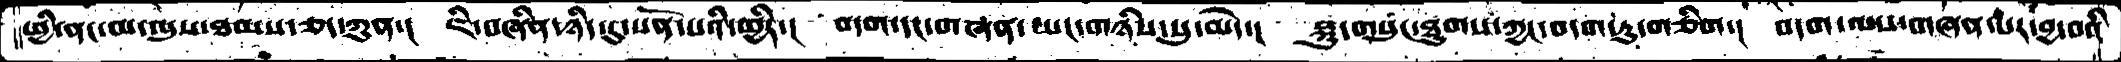ཕྱི་ནང་མ་ལུས་ཐམས་ཅད་ཀུན་།  ཇི་བཞིན་ཉིད་དུ་སོན་པའི་ཕྱིར་།  བདག་དང་གཞན་ཡང་གཉིས་སུ་མེད་།   སྐུ་གསུང་ཐུགས་ཀྱང་བདག་ཏུ་གཅིག་།  བདག་ལས་གཞན་པར་བྱ་བའི
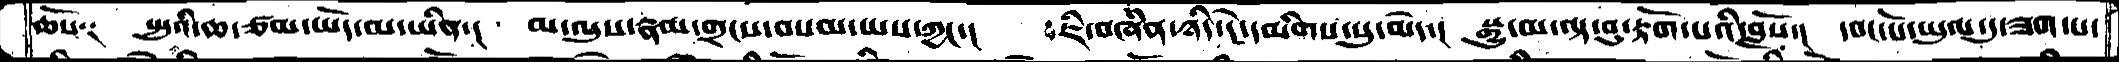ཆོས༑   སྤུའི་ཆ་ཙམ་ཡོད་མ་ཡིན་།  མ་ལུས་རྣམ་གྲངས་བསམ་ཡས་ཀྱང་།  ་ཇི་བཞིན་ཉིད་དེ་དམིགས་སུ་མེད་།  སྒྱུ་མ་ལྟ་བུ་རྟོག་པའི་བློས་།  དབང་པོ་ཡུལ་དུ་ཟག་པ་
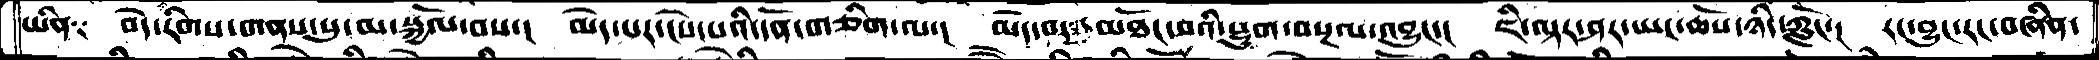ཡིན༑   བདེ་རིགས་གནས་སུ་མ་སྐྱོལ་བས་།  མེད་པར་ངེས་པའི་དོན་གཅིག་ལ་།  མེད་བར་མཐོང་བའི་སྡུག་བསྔལ་འབྱུང་།   ཇི་ལྟར་ཤར་ཡང་ཆོས་ཉིད་ཀློང་།  རང་བྱུང་རང་བཞིན་
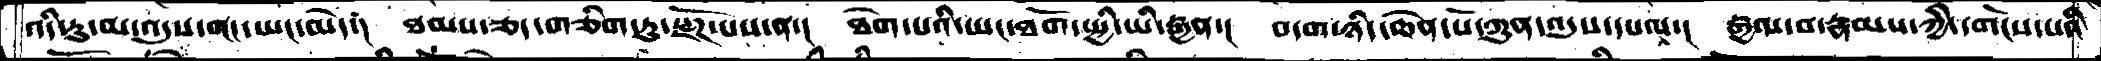འདི་རུ་མ་འདུས་གང་ཡང་མེད་།   ཐམས་ཅད་གཅིག་ཏུ་སྫོཌ་པས་ན་།  ཐེག་པའི་ཡང་ཐོག་སྤྱི་ཡི་རྒྱན་།  བདག་ཉིད་ཆེན་པོ་ཀུན་འདུས་དཔལ་།  རྒྱལ་བ་རྣམས་ཀྱི་དགོངས་པའི
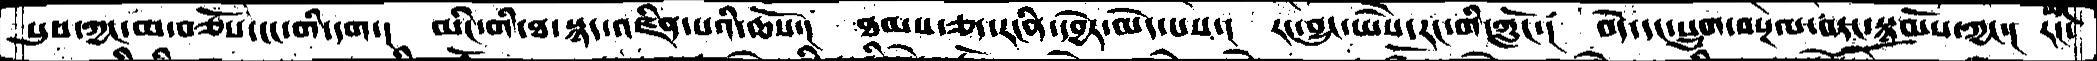སུས་ཀྱང་མ་བཅོས་ངང་གི་དག།  མིང་གི་ཐ་སྙད་འཛིན་པའི་ཆོས་།  ཐམས་ཅད་རངིན་དབྱེར་མེད་པས་།  རང་བྱུང་ཡཻས་རང་གི་ཀློང་།  བདེ་དང་སྡུག་བསྔལ་བཏང་སྙོམས་ཀྱང་།  རང་
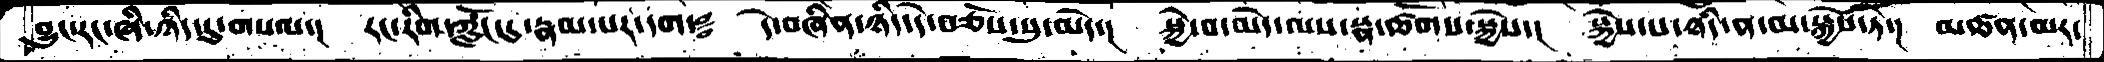བྱུང་རང་ཞི་ཉིད་དུ་གསལ་།   རང་རིག་ཀློང་དུ་རྣམ་པར་དག་༔   དེ་བཞིན་ཉིད་དེ་བཅོས་སུ་མེད་།   སྐྱེ་བ་མེད་ལས་སྣ་ཚོགས་སྐྱེས་།  སྐྱེས་པ་ཉིད་ན་མ་སྐྱེས་ཏེ་།  མཚན་མར་
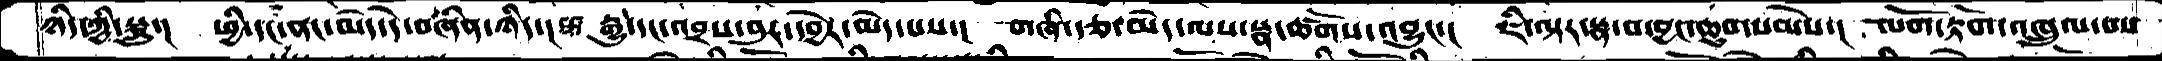ཉིད་ཀྱི་སྐུ་། ཕྱི་དང་ནང་མེད་དེ་བཞིན་ཉིད་ང  རྒྱུ་དང་འབྲས་བུར་དབྱེར་མེད་པས་། གཞི་རྩ་མེད་ལས་སྣ་ཚོགས་འབྱུང་། ཇི་ལྟར་སྣ་བ་བྱང་ཆུབ་སེམས་། ལོག་རྟོག་འཁྲུལ་བས
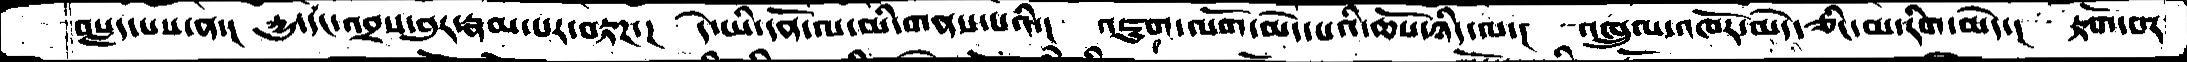བསླད་པས་ན་།  དྱུ་དང་འབྲས་བུར་རྣམ་པར་བརྟཌ་།  དེ་ཡི་དོན་ལ་མི་གནས་པའི་།  འཇུག་ལོག་མེད་པའི་ཆོས་ཉིད་ལ་།  འཁྲུལ་འཁོར་མེད་ཅིང་མ་རིག་མེད་།  རྟོག་པར་
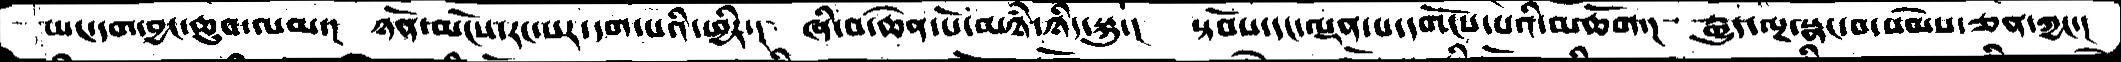ཡང་དག་བྱང་ཆུབ་ལམ་།  ཉོན་མོངས་རང་སར་དག་པའི་ཕྱིར་།  ཞི་བ་ཆེན་པོ་མཉཾ་ཉིད་སྐུ་།  སྟོབས་དང་ལྡན་པ་དགོངས་པའི་མཆོག་།  རྒྱུད་ལྔ་སྣང་བ་སེམས་ཅན་ཀྱང་།
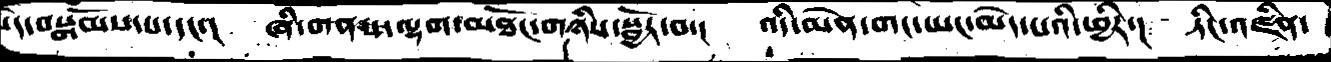་དེ་བསྒོམས་པ་དང་།  ཞི་གནས་ལྷག་མཐོང་གཉིས་སྦྱོར་བ་།  འདི་མེན་གང་ཡང་མེད་པའི་ཕྱིར་།  ཏིང་འཛིན་
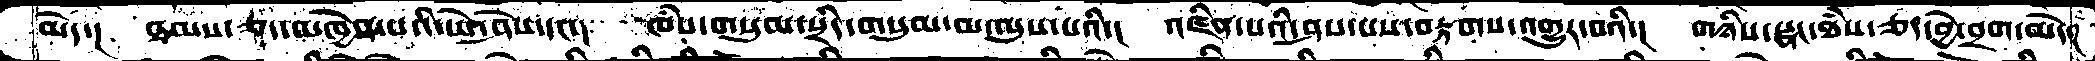མེད་།  ཐམས་ཅད་མཁྱེན་པའི་ཡེ་ཤེས་དང་།  ཁཾས་གསུམ་སྲིད་གསུམ་མ་ལུས་པའི་།  འཛིན་པའི་ཤས་པས་བརྟགས་འགྱུར་བའི་།  གཉིས་སྣང་ཐཾས་ཅད་བྱེ་བྲག་མེད་།
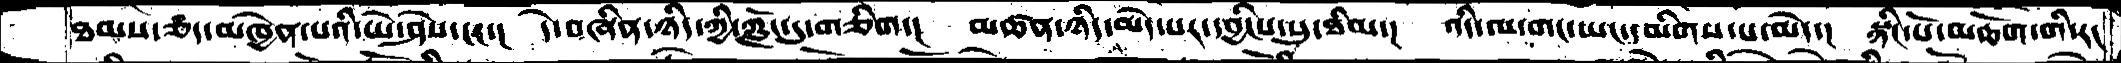ཐམས་ཅད་མཁྱེན་པའི་ཡེ་ཤེས་ངང་།  དེ་བཞིན་ཉིད་ཀྱི་ཀློང་དུ་གཅིག་།  མཚན་ཉིད་མེད་པར་དབྱིངས་སུ་ཐིམ་།  འདི་ལ་གང་ཡང་དམིགས་པ་མེད་།  སྙིང་པོ་མཆོག་གི་རང
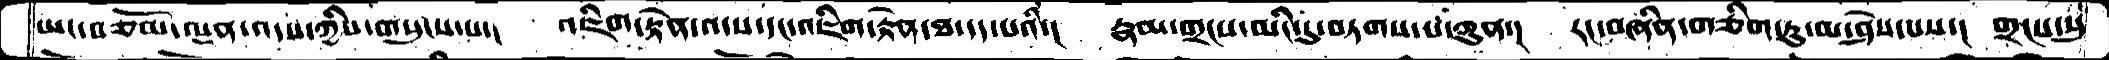ཡང་བཅོམ་ལྡན་འདས་ཀྱིས་གསུངས་པ་།   འཇིག་རྟེན་འདས་དང་འཇིག་རྟེན་ཐ་དད་པའི་།  རྣམ་གྲངས་མིང་དུ་བཏགས་པ་ཀུན་།  རང་བཞིན་གཅིག་ཏུ་མ་ཤེས་པས་།  གྲངས་སུ
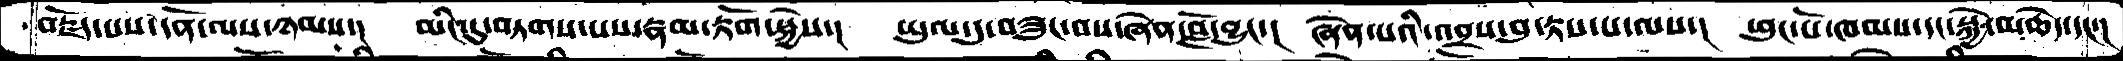བརྗོད་པས་དོན་ལས་ཉམས་།  མིང་དུ་བཏགས་པས་རྣམ་རྟོག་སྐྱེས་།  ཡུལ་དུ་བཟུང་བས་ཞེན་བློ་བྱུང་།  ཞེན་པའི་འབྲས་བུ་རྟས་པ་ལས་།  ཕུང་པོ་ཁམས་དང་སྐྱེ་མཆེད་དང་།
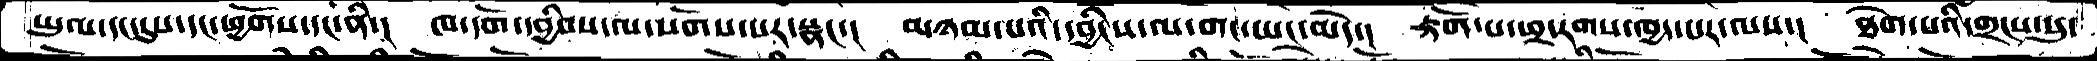ཡུལ་དང་དུས་དང་ཕྱོགས་དང་ནི་།  ཁ་དོག་དབྱིབས་ལ་སོགས་པར་སྣང་།  མཉམ་པའི་དབྱིངས་ལ་གང་ཡང་མེད་།  རྟོག་པ་ཕྲ་རགས་ཁྱད་པར་ལས་།  ཐེག་པའི་གྲངས་སུ་
